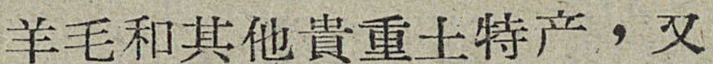羊毛和其他貴重土特产，又
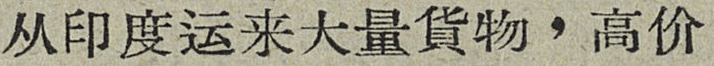从印度运来大量貨物，高价
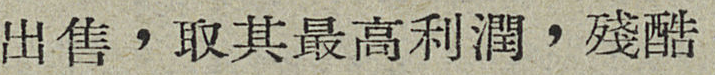出售，取其最高利潤，殘酷
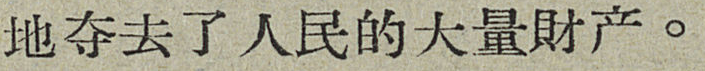地夺去了人民的大量財产。
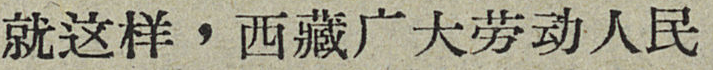就这样，西藏广大劳动人民
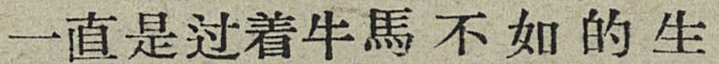一直是过着牛馬不如的生
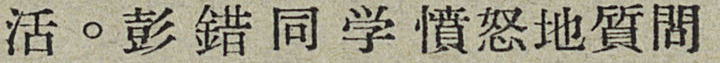活。彭錯同学憤怒地質問
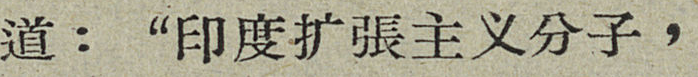道：“印度扩張主义分子，
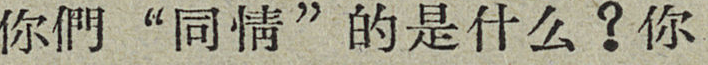你們“同情”的是什么？你
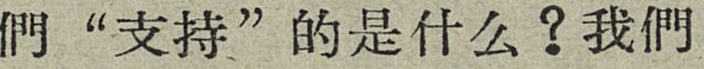們“支持”的是什么？我們
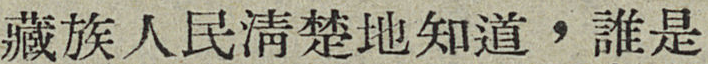藏族人民清楚地知道，誰是
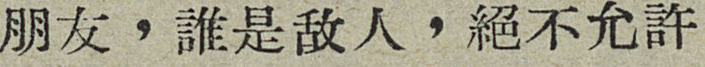朋友，誰是敌人，絕不允許
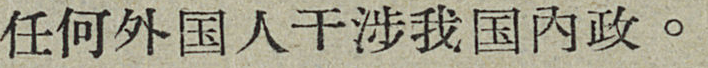任何外国人干涉我国内政。
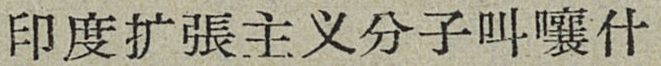印度扩張主义分子叫嚷什
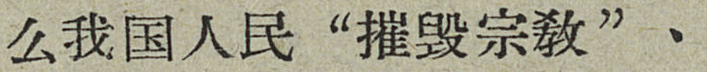么我国人民“摧毀宗敎”、
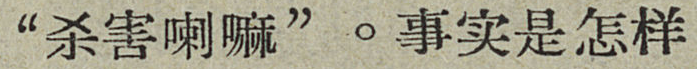“杀害喇嘛”。是事实怎样
